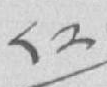༨༢
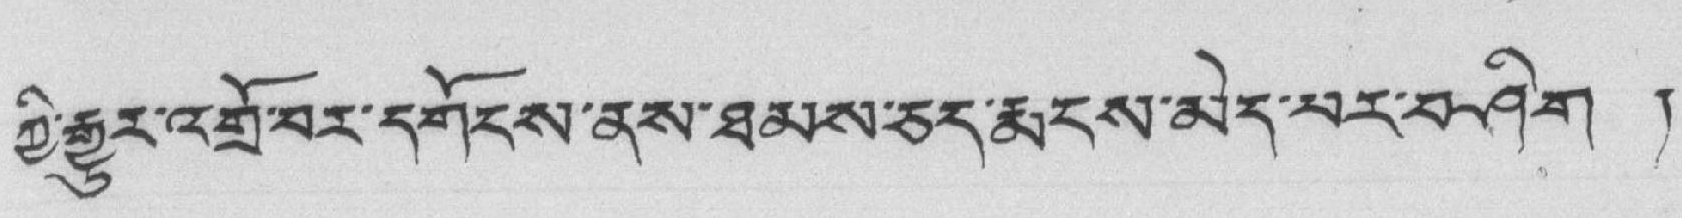ཀྱི་རྒྱུར་འགྲོ་བར་དགོངས་ནས་ཐམས་ཅད་རྨངས་མེད་པར་བཤིག །
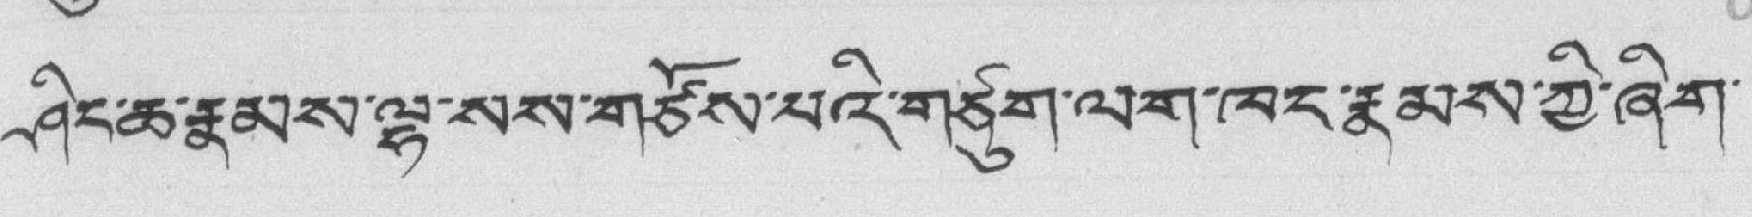ཤིང་ཆ་རྣམས་ལྷ་སས་གཙོས་པའི་གཙུག་ལག་ཁང་རྣམས་ཀྱི་ཞིག་
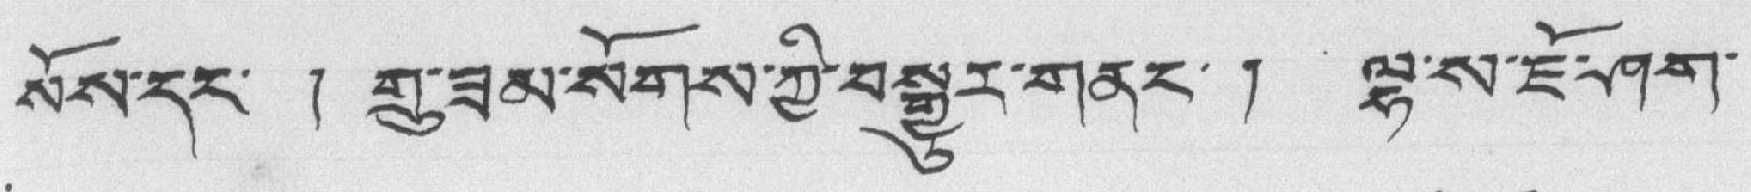སོས་དང་ ། གྲུ་ཟམ་སོགས་ཀྱི་བསྒྱུར་གནང་། ལྷ་ས་ཇོ་ཤག་
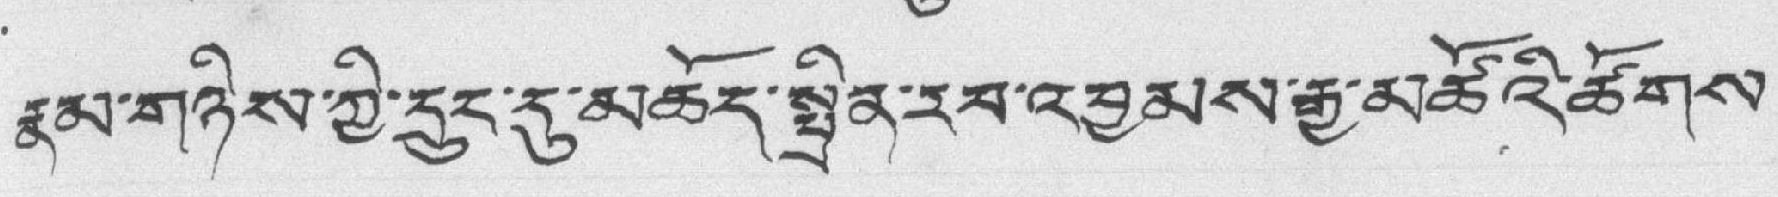རྣམ་གཉིས་ཀྱི་དྲུང་དུ་མཆོད་སྤྲིན་རབ་འབྱམས་རྒྱ་མཚོའི་ཚོགས་
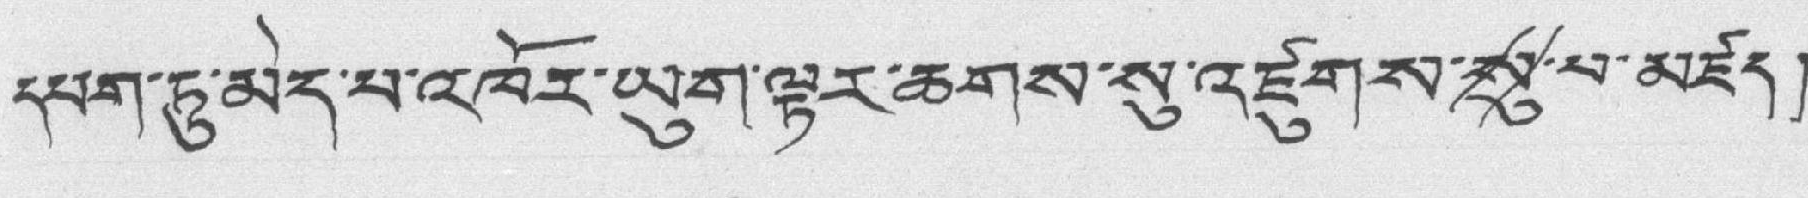དཔག་ཏུ་མེད་པ་འཁོར་ཡུག་ལྟར་ཆགས་སུ་འཛུགས་སུ་པ་མཛད།
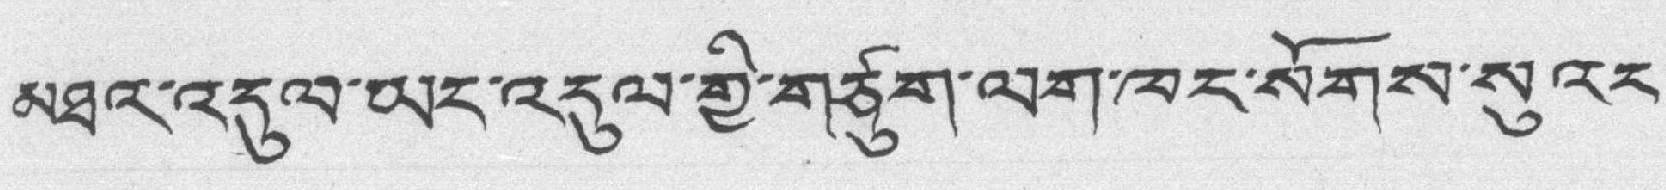མཐའ་འདུལ་ཡང་འདུལ་གྱི་གཙུག་ལག་ཁང་སོགས་སུའང་
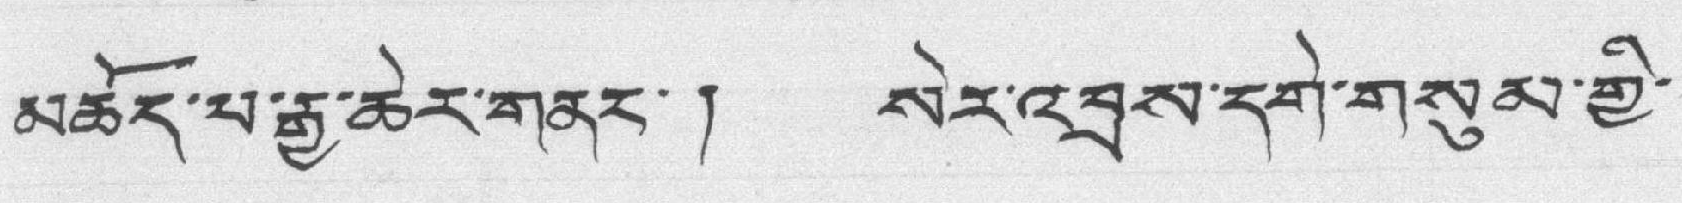མཆོད་པ་རྒྱ་ཆེར་གནང་། སེར་འབྲས་དགེ་གསུམ་གྱི་
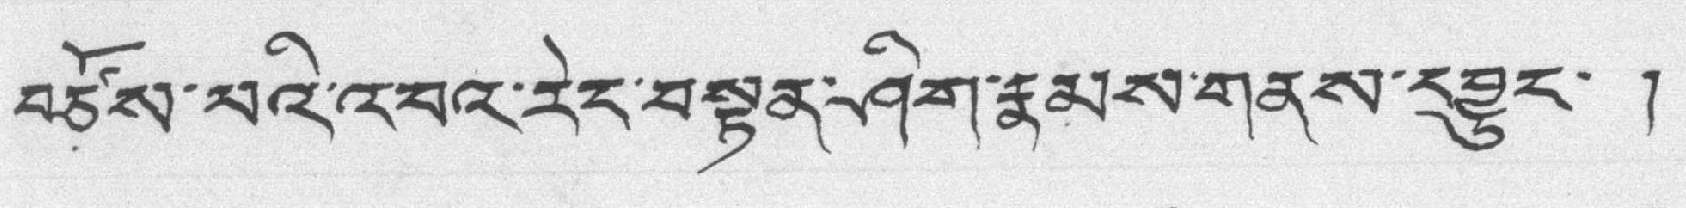བཙོས་པའི་འབའ་རེང་བསྟན་ཤིག་རྣམས་གནས་དབྱུང་ །
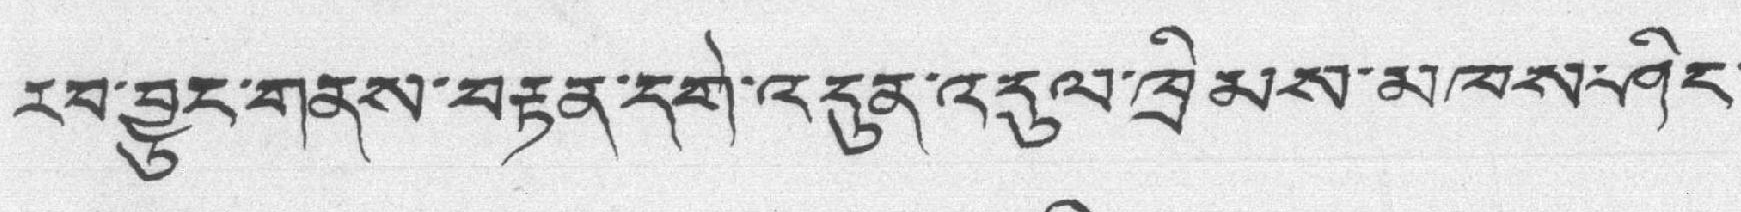རབ་བྱུར་གནས་བརྟན་དགེ་འདུན་འདུལ་ཁྲིམས་མཁས་ཤིང་
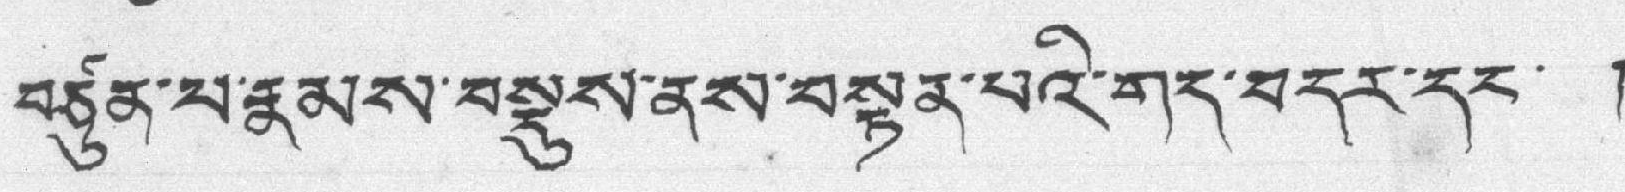བཙུན་པ་རྣམས་བསྡུས་ནས་བསྟན་པའི་གད་བདར་དང་ །
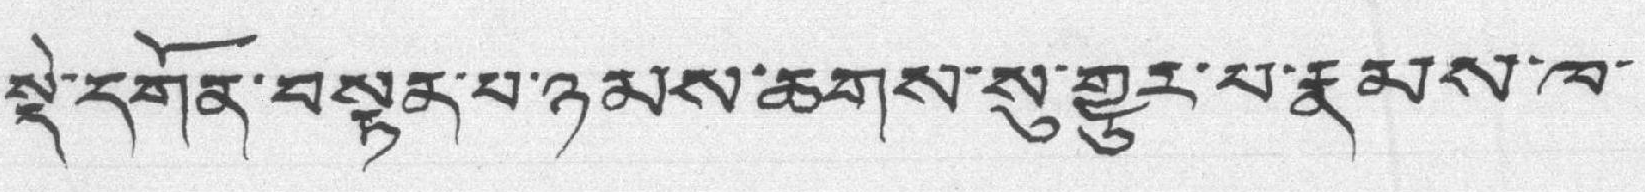སྡེ་དགོན་བསྟན་པ་ཉམས་ཆགས་སུ་གྱུར་པ་རྣམས་ཁ་
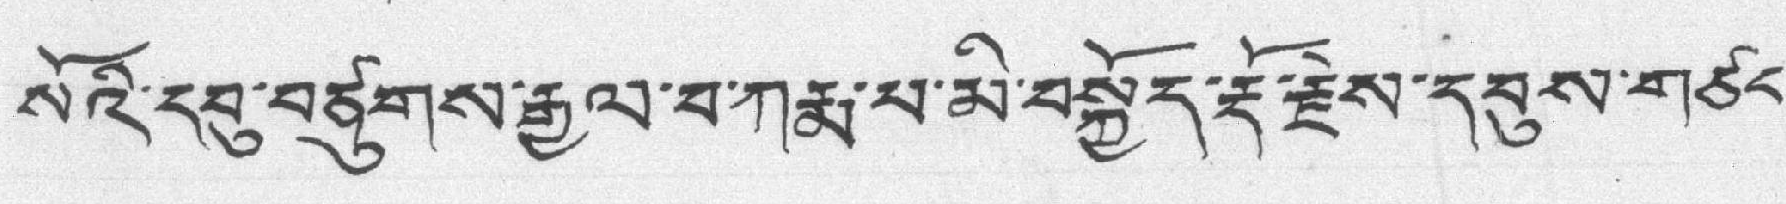སོའི་དབུ་བཙུགས་རྒྱལ་བ་ཀརྨ་པ་མི་བསྐྱོད་རྡོ་རྗེས་དབུས་གཙང་
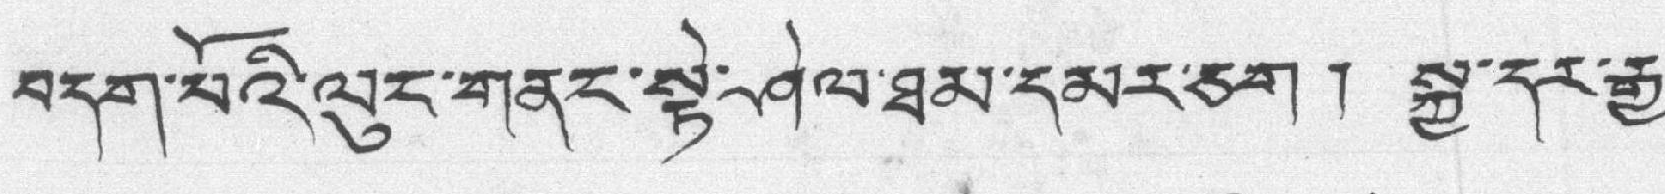བདག་པོའི་ལུང་གནང་སྟེ་ཤེལ་ཐམ་དམར་ཅག ། སྐྱུ་དར་རྒྱ་
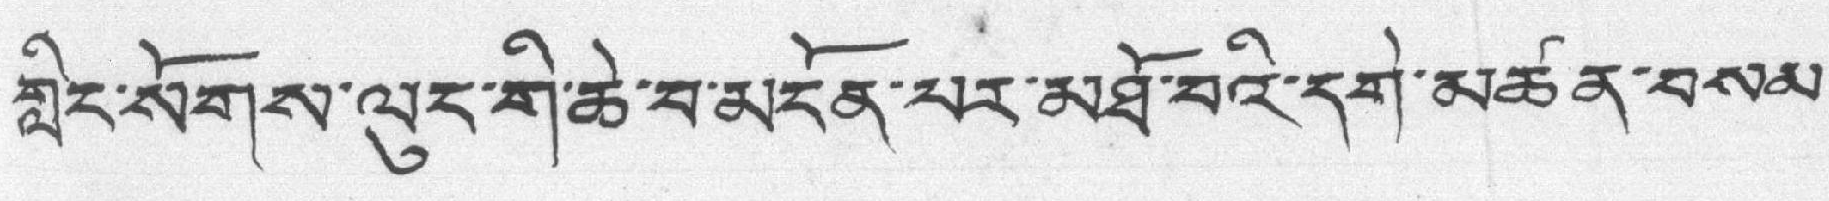གླིང་སོགས་ལུང་གི་ཆེ་བ་མངོན་པར་མཐོ་བའི་དགེ་མཚན་བསམ་
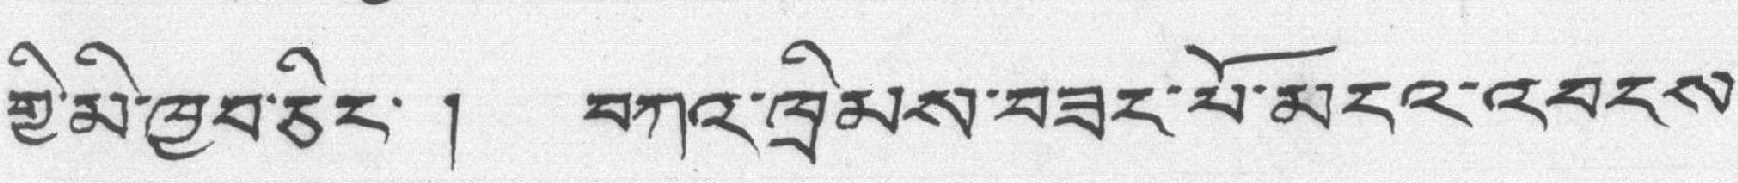གྱི་མི་ཁྱབ་ཅིང་ ། བཀའ་ཁྲིམས་བཟང་པོ་མངའ་འབངས་
